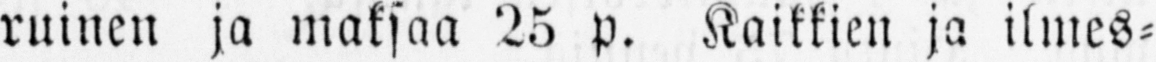ruinen ja maksaa 25 p. Kaikkien ja ilmes-
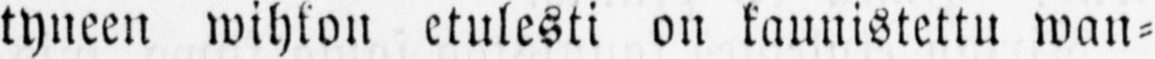tyneen wihkon etulesti on kaunistettu wan-
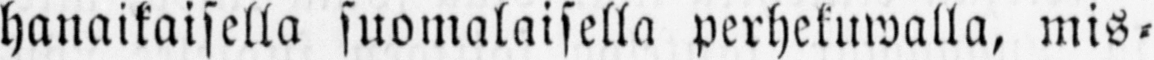hanaikaisella suomalaisella perhekuwalla, mis-
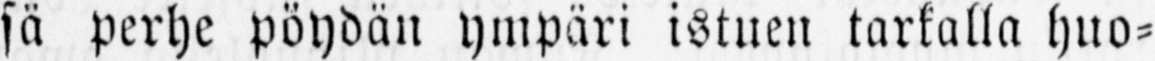sä perhe pöydän ympäri istuen tarkalla huo-
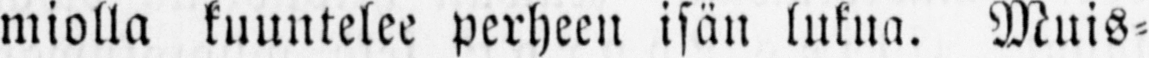miolla kuuntelee perheen isän lukua. Muis-
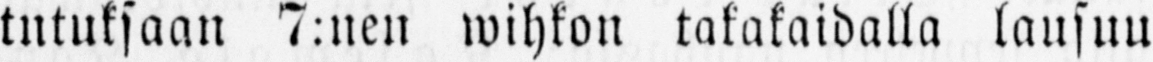tutuksaan 7:nen wihkon takakaidalla lausuu
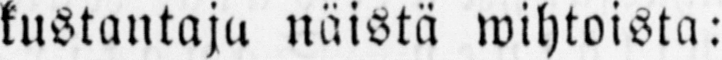kustantaja näistä wihtoista:
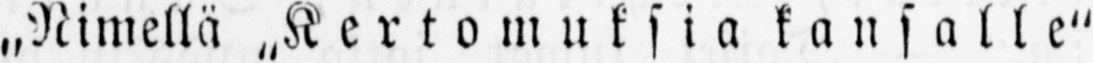„Nimellä „Kertomuksia kansalle"
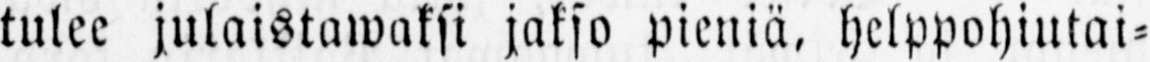tulee julaistawaksi jakso pieniä, helppohiutai-
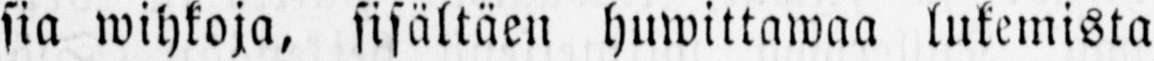sia wihkoja, sisältäen huwittawaa lukemista
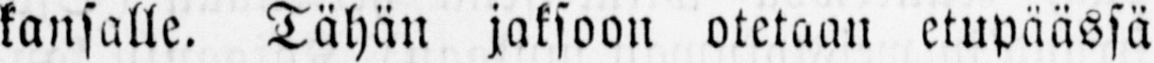kansalle. Tähän jaksoon otetaan etupäässä
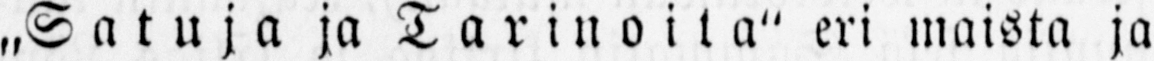„Satuja ja Tarinoita" eri maista ja
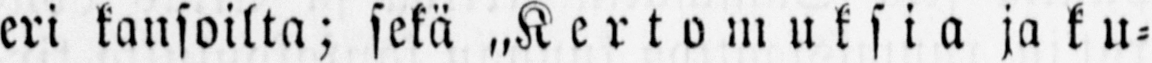eri kansoilta; sekä „Kertomuksia ja ku-
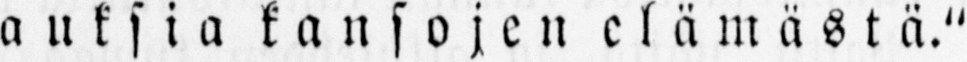wauksia kansojen elämästä."
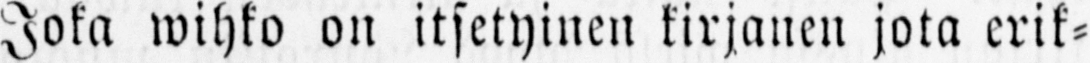Joka wihko on itsetyinen kirjanen jota erik-
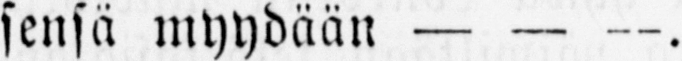sensä myydään — — —.
